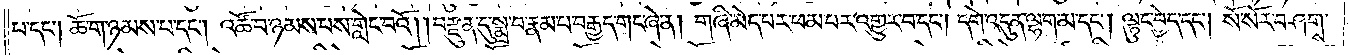པ་དང༌། ཆོ་ག་ཉམས་པ་དང༌། འཚོ་བ་ཉམས་པས་གླེང་བའོ། །བརྫུན་དུ་སྨྲ་བ་རྣམ་པ་བརྒྱད་གང་ཞེ་ན། གཞི་མེད་པར་ཕམ་པར་འགྱུར་བ་དང༌། དགེ་འདུན་ལྷག་མ་དང༌། ལྟུང་བྱེད་དང༌། སོ་སོར་བཤགས་
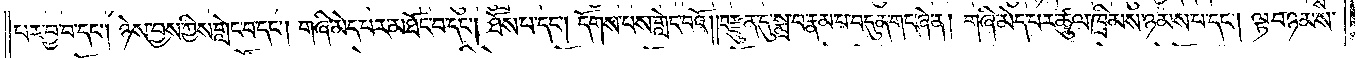པར་བྱ་བ་དང༌། ཉེས་བྱས་ཀྱིས་གླེང་བ་དང༌། གཞི་མེད་པར་མཐོང་བ་དང༌། ཐོས་པ་དང༌། དགོས་པས་གླེང་བའོ། །བརྫུན་དུ་སྨྲ་བ་རྣམ་པ་བདུན་གང་ཞེ་ན། གཞི་མེད་པར་ཚུལ་ཁྲིམས་ཉམས་པ་དང༌། ལྟ་བ་ཉམས་
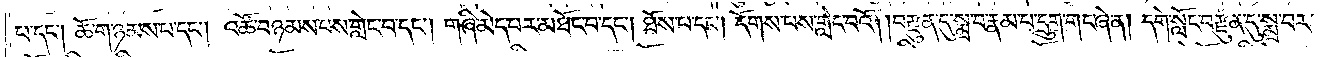པ་དང༌། ཆོ་ག་ཉམས་པ་དང༌། འཚོ་བ་ཉམས་པས་གླེང་བ་དང༌། གཞི་མེད་པར་མཐོང་བ་དང༌། ཐོས་པ་དང༌། དོགས་པས་གླེང་བའོ། །བརྫུན་དུ་སྨྲ་བ་རྣམ་པ་དྲུག་གང་ཞེ་ན། དགེ་སློང་བརྫུན་དུ་སྨྲ་བར་
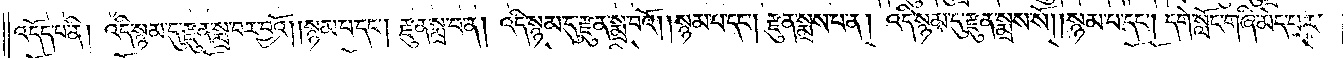འདོད་པ་ནི། འདི་སྙམ་དུ་རྫུན་སྨྲ་བར་བྱའོ། །སྙམ་པ་དང༌། རྫུན་སྨྲ་བ་ན། འདི་སྙམ་དུ་རྫུན་སྨྲ་བའོ། །སྙམ་པ་དང༌། རྫུན་སྨྲས་པ་ན། འདི་སྙམ་དུ་རྫུན་སྨྲས་སོ། །སྙམ་པ་དང༌། དགེ་སློང་གཞི་མེད་པར་
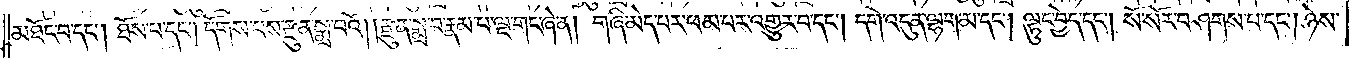མཐོང་བ་དང༌། ཐོས་པ་དང༌། དོགས་པས་རྫུན་སྨྲ་བའོ། །རྫུན་སྨྲ་བ་རྣམ་པ་ལྔ་གང་ཞེ་ན། གཞི་མེད་པར་ཕམ་པར་འགྱུར་བ་དང༌། དགེ་འདུན་ལྷག་མ་དང༌། ལྟུང་བྱེད་དང༌། སོ་སོར་བཤགས་པ་དང༌། ཉེས་
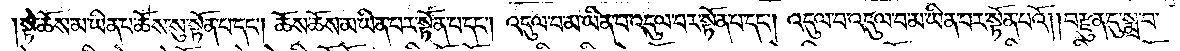སྟེ་ཆོས་མ་ཡིན་པ་ཆོས་སུ་སྟོན་པ་དང༌། ཆོས་ཆོས་མ་ཡིན་པར་སྟོན་པ་དང༌། འདུལ་བ་མ་ཡིན་པ་འདུལ་བར་སྟོན་པ་དང༌། འདུལ་བ་འདུལ་བ་མ་ཡིན་པར་སྟོན་པའོ། །བརྫུན་དུ་སྨྲ་བ་
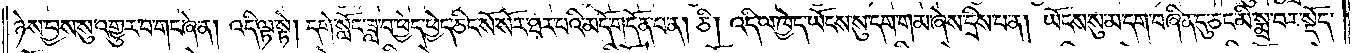ཉེས་བྱས་སུ་འགྱུར་བ་གང་ཞེ་ན། འདི་ལྟ་སྟེ། དགེ་སློང་ཟླ་བ་ཕྱེད་ཕྱེད་ཅིང་སོ་སོར་ཐར་པའི་མདོ་གདོན་པ་ན། ཅི། འདི་ལ་ཁྱེད་ཡོངས་སུ་དག་གམ་ཞེས་དྲིས་པ་ན། ཡོངས་སུ་མ་དག་བཞིན་དུ་ཅང་མི་སྨྲ་བར་སྡོད་
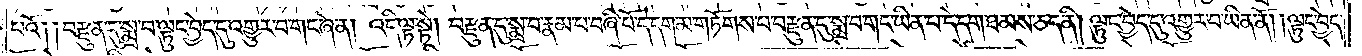པའོ༑ ༑བརྫུན་དུ་སྨྲ་བ་ལྟུང་བྱེད་དུ་འགྱུར་བ་གང་ཞེ་ན། འདི་ལྟ་སྟེ། བརྫུན་དུ་སྨྲ་བ་རྣམ་པ་བཞི་པོ་དེ་དག་མ་གཏོགས་པ་བརྫུན་དུ་སྨྲ་བ་གང་ཡིན་པ་དེ་དག་ཐམས་ཅད་ནི། ལྟུང་བྱེད་དུ་འགྱུར་བ་ཡིན་ནོ། །ལྟུང་བྱེད་
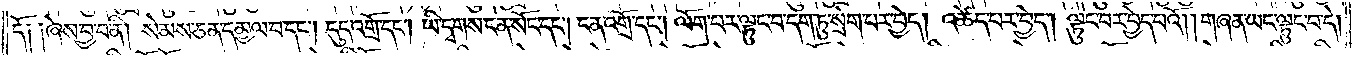དོ༑ ༑ཞེས་བྱ་བ་ནི། སེམས་ཅན་དམྱལ་བ་དང༌། དུད་འགྲོ་དང༌། ཡི་དྭགས་ངན་སོང་དང༌། ངན་འགྲོ་དང༌། ལོག་པར་ལྟུང་བ་དག་ཏུ་སྲེག་པར་བྱེད། འཚེད་པར་བྱེད། ལྟུང་བར་བྱེད་པའོ། །གཞན་ཡང་ལྟུང་བ་དེ།
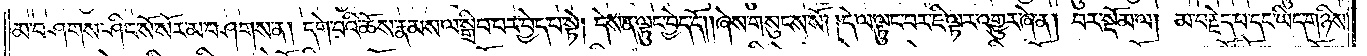མ་བཤགས་ཤིང་སོ་སོར་མ་བཤགས་ན། དགེ་བའི་ཆོས་རྣམས་ལ་སྒྲིབ་པར་བྱེད་པ་སྟེ། དེས་ན་ལྟུང་བྱེད་དོ། །ཞེས་གསུངས་སོ། །དེ་ལ་ལྟུང་བར་ཇི་ལྟར་འགྱུར་ཞེ་ན། བར་སྡོམ་ལ། མ་བརྗེད་པ་དང་ཡིད་གཉིས་
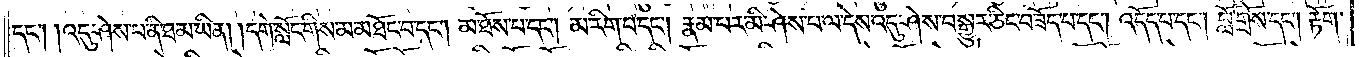དང༌། །འདུ་ཤེས་པ་ནི་ཐ་མ་ཡིན། །དགེ་སློང་གིས་མ་མཐོང་བ་དང༌། མ་ཐོས་པ་དང༌། མ་རིག་པ་དང༌། རྣམ་པར་མི་ཤེས་པ་ལ་དེས་འདུ་ཤེས་བསྒྱུར་ཅིང་བཟོད་པ་དང༌། འདོད་པ་དང༌། བློ་གྲོས་དང༌། རྟོག་
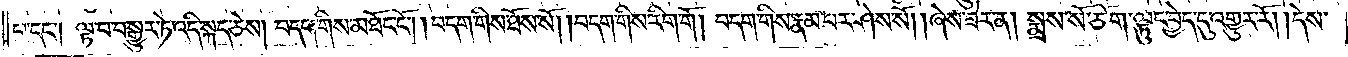པ་དང༌། ལྟ་བ་བསྒྱུར་ཏེ་འདི་སྐད་ཅེས། བདག་གིས་མཐོང་ངོ༌། །བདག་གིས་ཐོས་སོ། །བདག་གིས་རིག་གོ། བདག་གིས་རྣམ་པར་ཤེས་སོ། །ཞེས་ཟེར་ན། སྨྲས་སོ་ཅོག་ལྟུང་བྱེད་དུ་འགྱུར་རོ། །དེས་
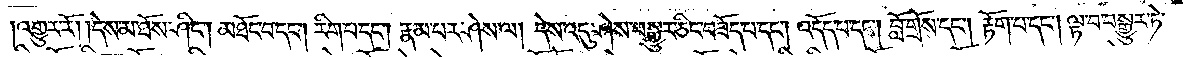འགྱུར་རོ། །དེས་མ་ཐོས་ཤིང༌། མཐོང་བ་དང༌། རིག་པ་དང༌། རྣམ་པར་ཤེས་ལ། དེས་འདུ་ཤེས་བསྒྱུར་ཅིང་བཟོད་པ་དང༌། འདོད་པ་དང༌། བློ་གྲོས་དང༌། རྟོག་པ་དང༌། ལྟ་བ་བསྒྱུར་ཏེ་
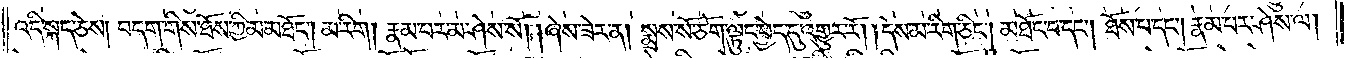འདི་སྐད་ཅེས། བདག་གིས་ཐོས་ཀྱི་མ་མཐོང༌། མ་རིག། རྣམ་པར་མ་ཤེས་སོ། །ཞེས་ཟེར་ན། སྨྲས་སོ་ཅོག་ལྟུང་བྱེད་དུ་འགྱུར་རོ། །དེས་མ་རིག་ཅིང༌། མཐོང་བ་དང༌། ཐོས་པ་དང༌། རྣམ་པར་ཤེས་ལ།
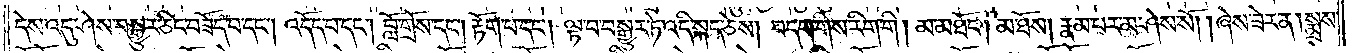དེས་འདུ་ཤེས་བསྒྱུར་ཅིང་བཟོད་པ་དང༌། འདོད་པ་དང༌། བློ་གྲོས་དང༌། རྟོག་པ་དང༌། ལྟ་བ་བསྒྱུར་ཏེ་འདི་སྐད་ཅེས། བདག་གིས་རིག་གི། མ་མཐོང༌། མ་ཐོས། རྣམ་པར་མ་ཤེས་སོ། །ཞེས་ཟེར་ན། སྨྲས་
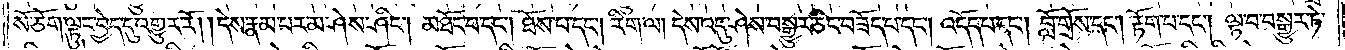སོ་ཅོག་ལྟུང་བྱེད་དུ་འགྱུར་རོ། །དེས་རྣམ་པར་མ་ཤེས་ཤིང༌། མཐོང་བ་དང༌། ཐོས་པ་དང༌། རིག་ལ། དེས་འདུ་ཤེས་བསྒྱུར་ཅིང་བཟོད་པ་དང༌། འདོད་པ་དང༌། བློ་གྲོས་དང༌། རྟོག་པ་དང༌། ལྟ་བ་བསྒྱུར་ཏེ་
